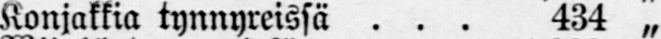Konjakkia tynnyreissä 434 „
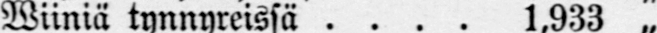Wiiniä tynnyreissä 1,933 „
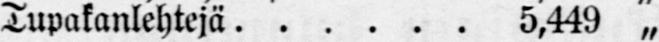Tupakanlehtejä 5,449 „
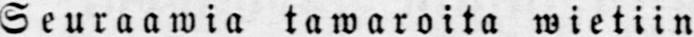Seuraawia tawaroita wietiin
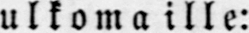ulkomaille:
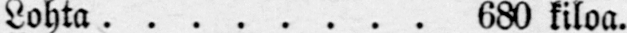Lohta 680 kiloa.
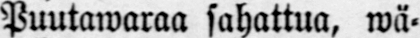Puutawaraa sahattua, wä.
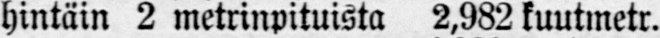hintäin 2 metrinpituista 2,982 kuutmetr.
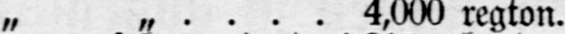„ „ 4,000 regton.
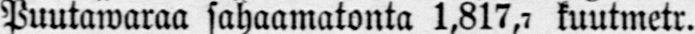Puutawaraa sahaamatonta 1,817,7 tuutmetr.
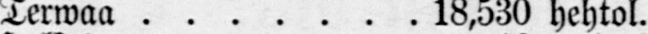Terwaa 18,530 hehtol.
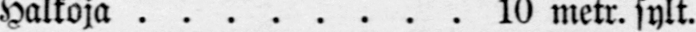Halkoja 10 metr. sylt.
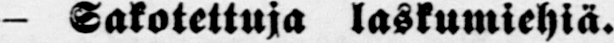- Sakotettuja laskumiehiä.
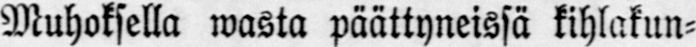Muhoksella wasta päättyneissä kihlakun-
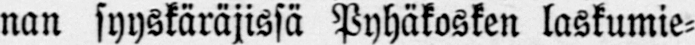nan syyskäräjissä Pyhäkosken laskumie-
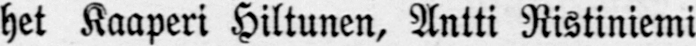het Kasperi Hiltunen, Antti Ristiniemi
